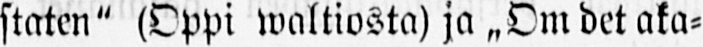staten" waltiosta) ja „Om det aka-
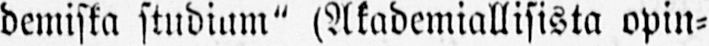demista studiam" (Akademiallisista opin-
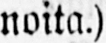noita.)
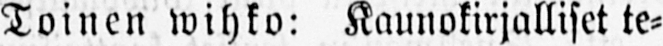Toinen wihko: Kaunokirjalliset te-
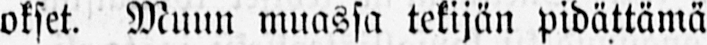okset. Muun muassa tekijän pidättämä
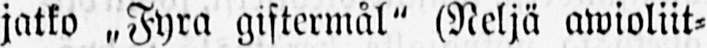jatko „Fyra giftermål" (Neljä awioliit-
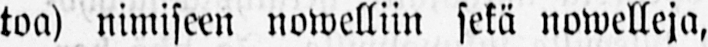toa) nimiseen nowelliin sekä nowelleja,
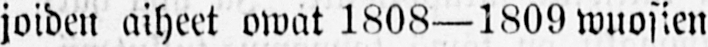joiden aiheet owat 1808—1809 wuosien
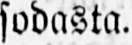sodasta.
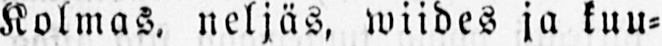Kolmas, neljäs, wiides ja kuu-
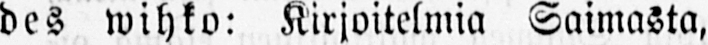des wihko: Kirjoitelmia Saimasta,
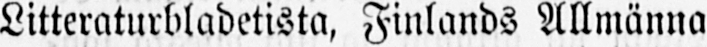Litteraturbladetista, Finlands Allmänna
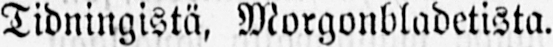Tidningistä, Morgonbladetista.
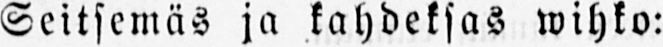Seitsemäs ja kahdeksas wihko:
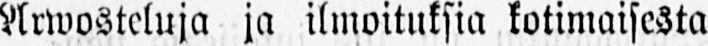Arwosteluja ja ilmoituksia kotimaisesta
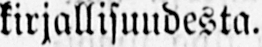kirjallisuudesta.
